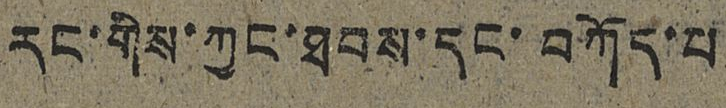རང་གིས་ཀྱང་ཐབས་དང་བཀོད་པ
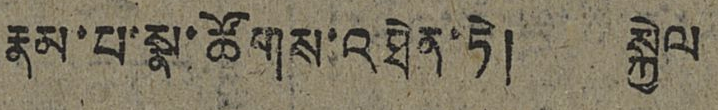རྣམ་པ་སྣ་ཚོགས་འཐེན་ཏེ། སྐྱེལ
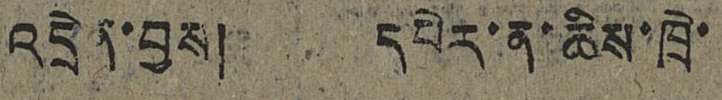འདྲེན་བྱས། དཔེར་ན་ཆིས་ཁྲེ་
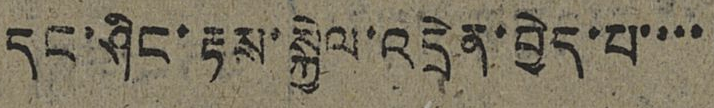དང་ཤིང་རྟས་སྐྱེལ་འདྲེན་བྱེད་པ་་་་
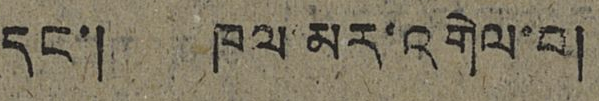དང་། ཁལ་མར་འགེལ་བ།
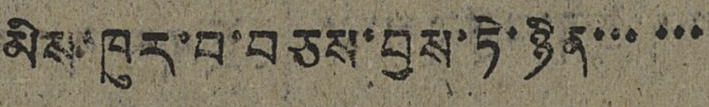མིས་ཁུར་བ་བཅས་བྱས་ཏེ་ཉིན་་་་་་
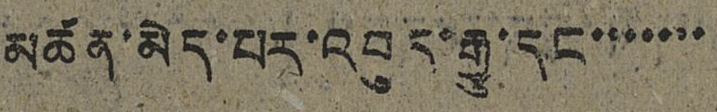མཚན་མེད་པར་འབུད་རྒྱུ་དང་་་་་་་
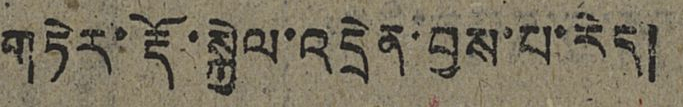གཏེར་རྡོ་སྐྱེལ་འདྲེན་བྱས་པ་རེད།
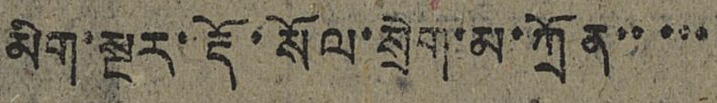མིག་སྔར་རྡོ་སོལ་སྲེག་མ་ཀྲོན་་་་་
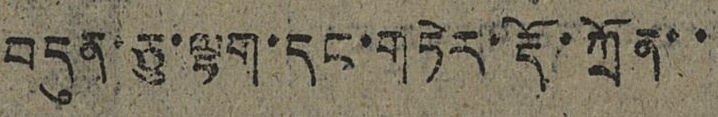བདུན་ཅུ་ལྷག་དང་གཏེར་རྡོ་ཀྲོན་་
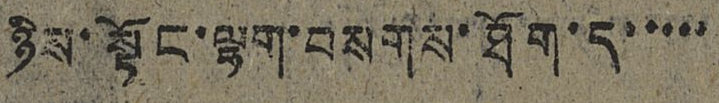ཉིས་སྟོང་ལྷག་བསགས་ཐོག་ད་་་་་
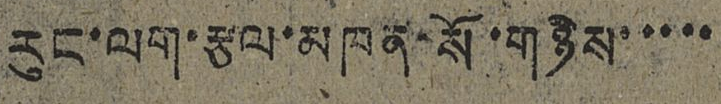རུང་ལག་རྩལ་མཁན་སོ་གཉིས་་་་་
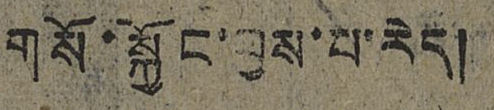གསོ་སྐྱོང་བྱ་པ་རེད།
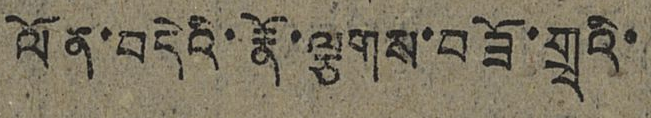ལོན་བདེའི་རྣོ་ལྕགས་བཟོ་གྲྭའི་
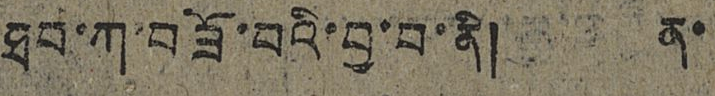ཐབ་ཀ་བཟོ་བའི་བྱ་བ་ནི། ན་
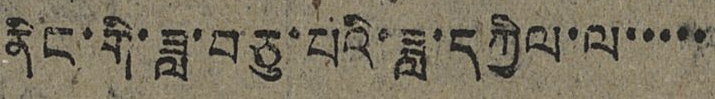ནིང་གི་ཟླ་བཅུ་པའི་ཟླ་དཀྱིལ་ལ་་་་་
